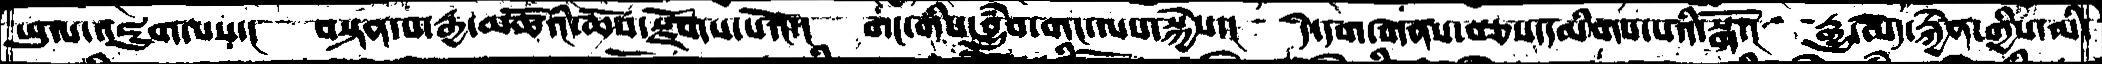ཡུལ་འཇུག་པས་།  བསྟན་པ་རྒྱ་མཚོའི་ཆོས་སྫོགས་པའོ་།  གང་གིས་བྱུཾབ་གང་ལས་སྐྱེས་།  དེ་དག་གནས་བཅས་དམིགས་པའི་སྒོ་།  རྒྱུ་མེད་རྐྱེན་གྱིས་མི་
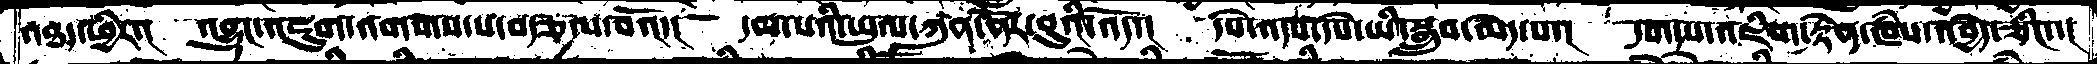འཐད་ཕྱིར་།  འབྱུང་འཇུག་འགགས་པ་བརྩལ་བའོ་།  དམ་པའི་ཡུལ་ཀུན་ནོར་བུའི་འོད་།  དཔེ་འདས་དཔེ་ཡི་སྒྲུབ་མེད་པ་།  དག་པ་འཇིག་རྟེན་ཁཾས་འབྱེད་ཅིང་་།
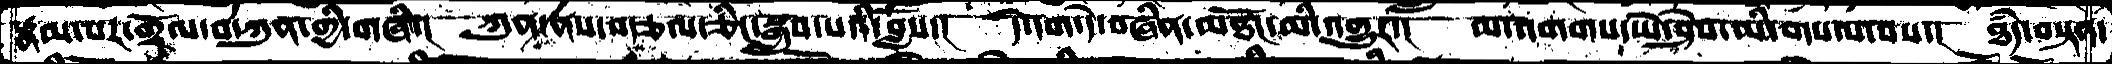རྣམ་པར་གྲོལ་བ་ཀུན་གྱི་གཞི་།  ཀུན་ནས་བརྩལ་ཅིང་སྒྲུབ་པའི་བློས་།  དེ་དག་དེ་བཞིན་མཐོང་མི་འགྱུར་།  མ་འགགས་ཡེ་ཤེས་མི་གསལ་བས་།  ཐཾད་བསྟན་
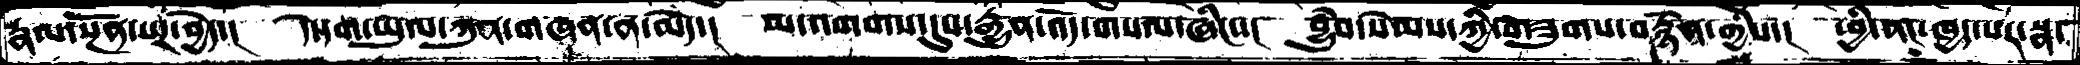རྣལ་སྔོན་པར་བྱེད་།  དེ་དག་ཡུལ་ཀུན་གཞན་ན་མེད་།  མ་འགགས་དུས་རྒྱུན་འོད་གསལ་ཞིང་་།  བྱུཾབ་སེམས་ཀྱི་གཟུགས་བརྙེན་གྱིས་།  ཕྱི་ནང་ཁྱད་པར་སྣ་
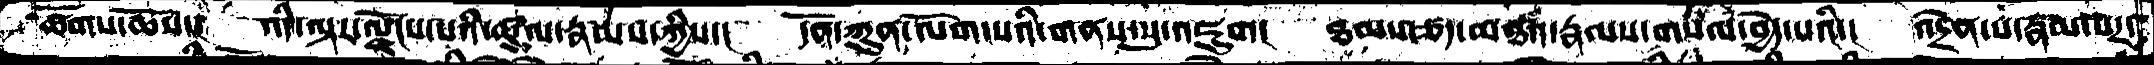ཚོགས་ཆོས་།  འདི་ལྟར་ལྗོངས་པའི་ཚུལ་རྣམས་ཀྱིས་།  དོན་ཀུན་ལོག་པའི་གནས་སུ་འཇུག།  ཐམས་ཅད་མཐའ་རྣམས་གསལ་བྱེད་པའི་།  འདྲེན་པ་རྣམ་པར་
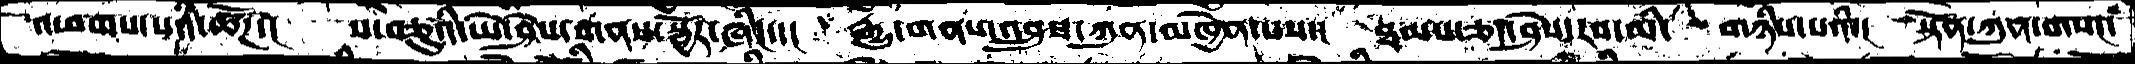འཕགས་པའི་ཚོཌ་།  ས་བཅུའི་ཡེ་ཤེས་གནས་སྦྱོར་ཞིང་་།  རྒྱུ་གནས་འབྲུས་ཀུན་མཁྱེན་པས་།  ཐམས་ཅད་ཤེས་རབ་མི་  གཉིས་པའི་།  སྟོན་ཀུན་གསང་
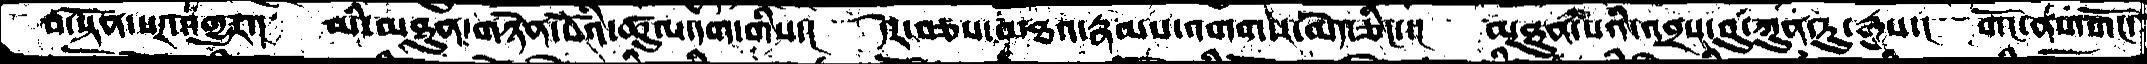བ་སྟོན་པར་འགྱུར་།  མི་མཐུན་གཉེན་པོའི་ཚུལ་དག་གིས་།  དེར་བཅས་མཐའ་རྣམས་འགགས་མེད་ཅིང་་།  མཐུན་པའི་འབྲས་བུ་ཀུན་ཏུ་རྒྱུས་།  གོང་ནས་གོང་
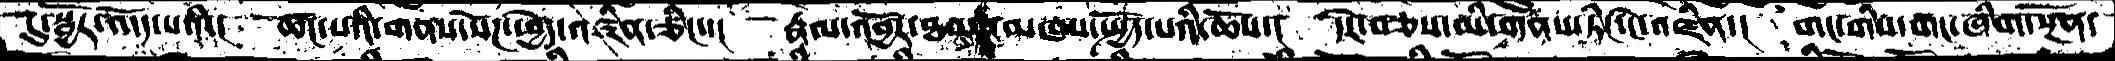དུ་སྦྱོར་འདོད་པའི་།  ཚང་པའི་གནས་སོཌ་ཕྱེད་འཛིན་ཅིང་་།  རྣལ་འབྱོར་་ཐབས་མཁས་སྤྱོད་པའི་ཆོས་།  དེར་བཅས་མི་གནས་ཏིང་ངེ་འཛིན་།  གང་གིས་གང་ཞིག་སྔོན་
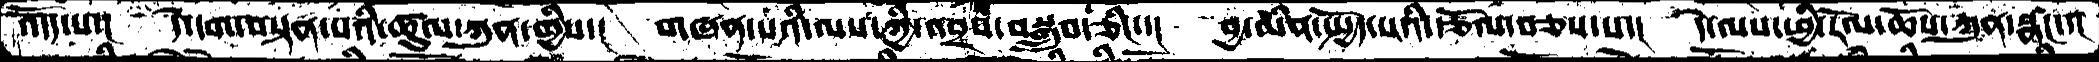འདོད་པ་།  དེ་དག་བསྟན་པའི་ཚུལ་ཀུན་གྱིས་།  གཞན་པའི་ལས་ཀྱི་འབྲས་བསྒྲུབ་ཅིང་་།  བྱ་མིན་སྤྱོད་པའི་རྩོལ་བཅས་པ་།  དེ་ལས་ཕྱི་རོལ་ཆོས་ཀུན་སྣང་་།
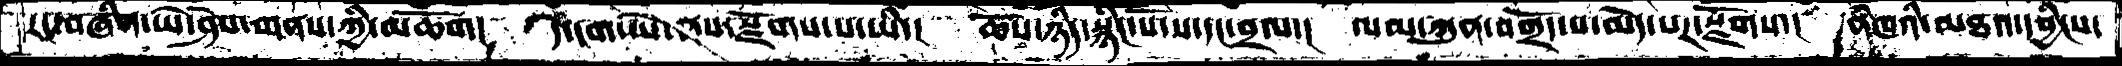རང་བཞིན་ཡེ་ཤེས་གནས་ཀྱི་མཆོག།  དེ་དག་ཡེ་ནས་སྫོགས་པ་ཡི་།  ཆོས་ཉིད་སྙིང་པོ་ས་དང་བྲལ་།  ལམ་ཀུན་བགྲོད་པ་མེད་པར་སྫོགས་།  ནཾཁའི་མཐའ་དབྱིངས་
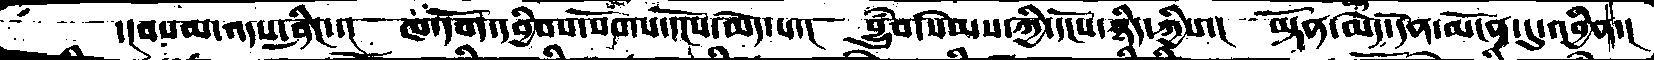་།བསམ་འདས་ཤིང་་།   ཁ་དོག་དབྱིབས་སོགས་དངོས་མེད་པ་།  བྱུཾབ་སེམས་ཀྱི་དངོས་ཉིད་ཀྱིས་།  ཡྟོན་མེད་དོན་མངོན་དུ་འབྱིན་།
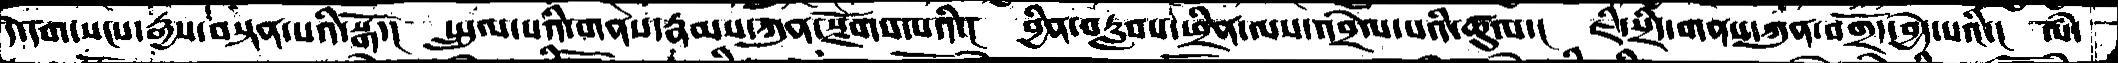དེ་དག་སངས་རྒྱས་བསྟན་པའི་སྒོ་།  སྤྲུལ་པའི་གནས་རྣམས་ཀུན་སྫོགས་པའི་།  བྱིན་བརླབས་ཕྲིན་ལས་འབྲེལ་པའི་ཚུལ་།  ཇི་སྲིད་གནས་ཀུན་བགྲོད་བྱེད་པའི་།  ལཾ་
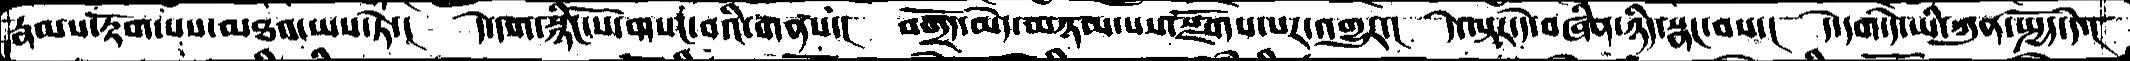རྣམས་རྟོག་པས་མཐའ་ཡས་ཏེ་།  དེ་དག་སྙིང་པོ་གསང་བའི་གནས་།  བགྲོད་མེད་མཉམ་པས་སྫོགས་པར་འགྱུར་།  དེ་ལྟར་དེ་བཞིན་ཉིད་སྣང་བས་།  དེ་དག་དེ་ཡི་ཀུན་སྤྱོད་དེ་།
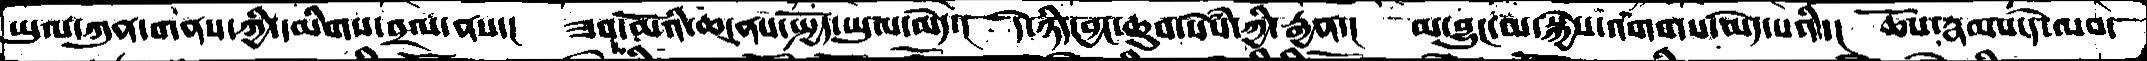ཡུལ་ཀུན་གནས་ཀྱི་དམིགས་བྲལ་ནས་།    ཟབ་མོའི་ཆ་ནས་སྤྱོད་ཡུལ་མེད་།   དེ་ཉིད་བྱང་ཆུབ་སེཾས་ཀྱི་རྒྱུན་།  མ་བྱུང་མ་སྐྱེས་འགགས་མེད་པའི་།  ཆོས་རྣམས་དེ་ལབ་
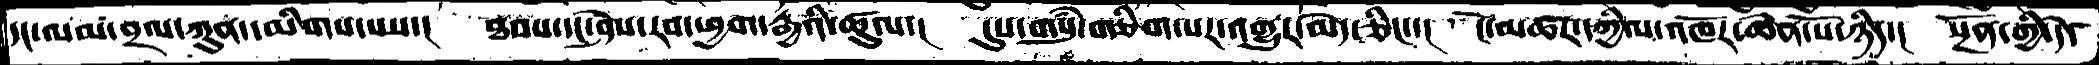དང་་ལམ་བྲལ་ཀུན་དམིགས་པས་། ཐབས་དང་ཤེས་རབ་ཕྱག་རྒྱའི་ཚུལ་། དུས་གསུཾ་གཅིག་པར་འགྱུར་མེད་ཅིང་་། ངོ་མཚར་དཀྱིལ་འཁོར་ཆེན་པོ་ཉིད་། སྔོན་གྱི་དེ་
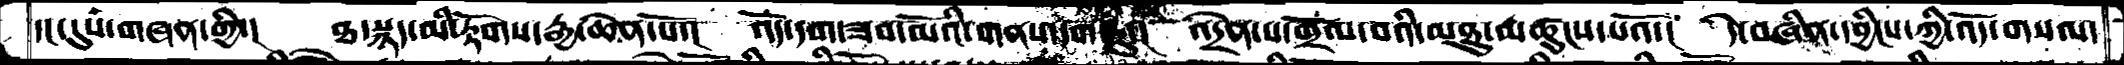དང་དུས་གཞན་གྱི་།  ཐ་སྙད་མི་རྟོགས་རྒྱ་ཆེན་པོ་།  འོད་དག་ཟབ་མོའི་གནས་དག་ཏུ་།  འདྲེན་པ་གྲོལ་བའི་མཐུ་མཚུངས་པའོ་།  དེ་བཞིན་དབྱིངས་ཀྱི་འོད་གསལ་
